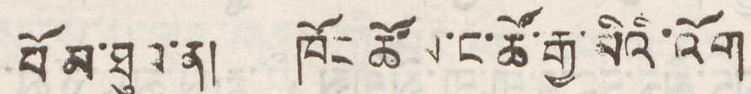པོ མ་ཐུབ་ན། ཁོང ཚོས་ང་ཚོ་རྒྱ་མིའི་འོག
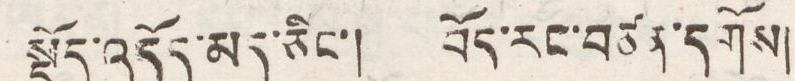སྡོད་འདོད་མད་ཅིང་། བོད་རང་བཙན་དགོས།
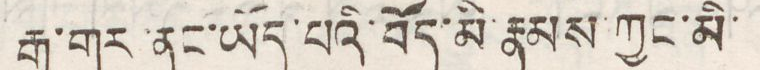རྒྱ་གར་ནང་ཡོད་པའི་བོད་མི་རྣམས་ཀྱང་མི་
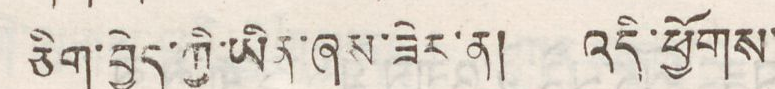ཅིག་བྱེད་ཀྱི་ཡིན་ཞས་ཟེར་ན། འདི་ཕྱོགས་
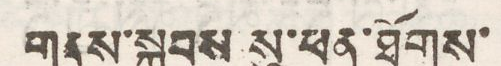གནས་སྐབས་སུ་ཕན་ཐོགས་
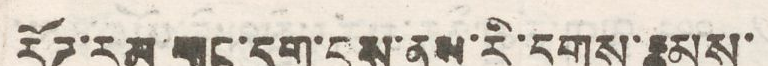རོཌ་རམ་གང་དྲག་བྱས་ནས་རི་དྭགས་རྣམས་
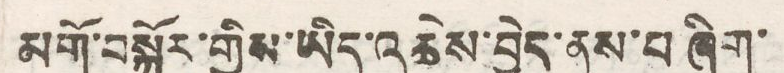མགོ་བསྐོར་གྱིས་ཡིད་འཆེས་བྱེད་ནུས་པ ཞིག་
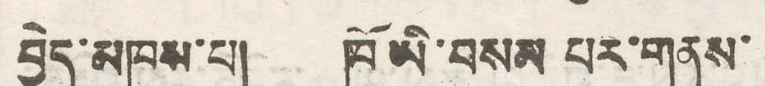བྱེད་མཁན་པ། ཁོ་ཡི་བསམ པར་གནས་
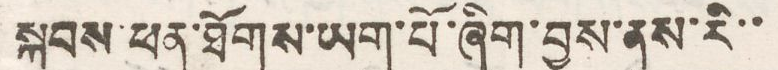སྐབས་ཕན་ཐོགས་ཡག་པོ་ཞིག་བྱས་ནས་རི་་
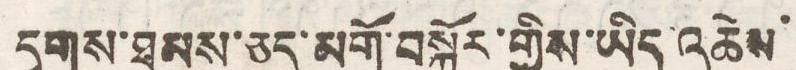དྭགས་ཐམས་ཅད་མགོ་བསྐོར་གྱིས་ཡིད་འཆེས་
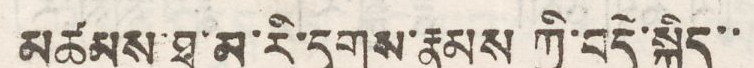མཚམས་ཐ་མ་རི་དྭགས་རྣམས ཀྱི་བདེ་སྐྱིད་་
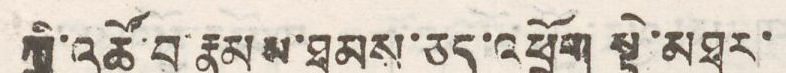ཀྱི་འཚོ་བ་རྣམས་ཐམས་ཅད་འཕྲོག སྟེ་མཐར་
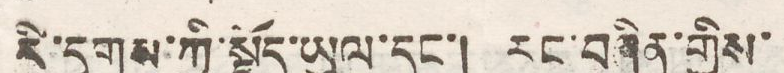རི་དྭགས་ཀྱི་སྡོད་ཡུལ་དང་། རང་བཞིན་གྱིས་
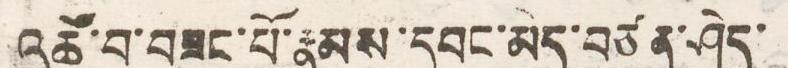འཚོ་བ་བཟང་པོ་རྣམས་དབང་མེད་བཙན་ཤེད་
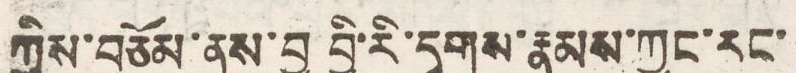ཀྱིས་བཅོམ་ནས་བྱ བྱི་རི་དྭགས་རྣམས་ཀྱང་རང་
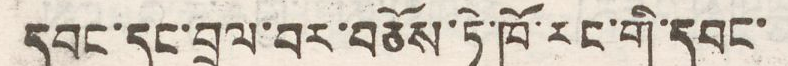དབང་དང་བྲལ་བར་བཅོས་ཏི་ཁོ་རང་གི་དབང་
